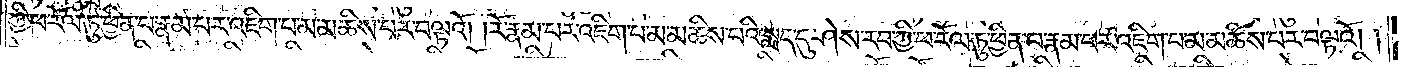ཀྱི་ཕ་རོལ་ཏུ་ཕྱིན་པ་རྣམ་པར་འཇིག་པ་མ་མཆིས་པར་བལྟའོ། །རོ་རྣམ་པར་འཇིག་པ་མ་མཆིས་པའི་སླད་དུ་ཤེས་རབ་ཀྱི་ཕ་རོལ་ཏུ་ཕྱིན་པ་རྣམ་པར་འཇིག་པ་མ་མཆིས་པར་བལྟའོ། །
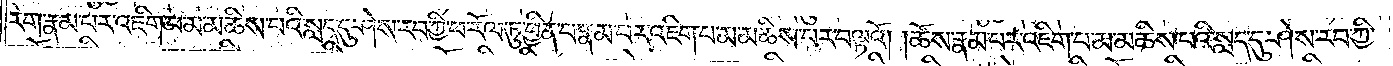རེག་རྣམ་པར་འཇིག་པ་མ་མཆིས་པའི་སླད་དུ་ཤེས་རབ་ཀྱི་ཕ་རོལ་ཏུ་ཕྱིན་པ་རྣམ་པར་འཇིག་པ་མ་མཆིས་པར་བལྟའོ། །ཆོས་རྣམ་པར་འཇིག་པ་མ་མཆིས་པའི་སླད་དུ་ཤེས་རབ་ཀྱི་
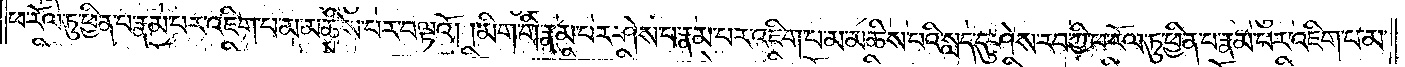ཕ་རོལ་ཏུ་ཕྱིན་པ་རྣམ་པར་འཇིག་པ་མ་མཆིས་པར་བལྟའོ། །མིག་གི་རྣམ་པར་ཤེས་པ་རྣམ་པར་འཇིག་པ་མ་མཆིས་པའི་སླད་དུ་ཤེས་རབ་ཀྱི་ཕ་རོལ་ཏུ་ཕྱིན་པ་རྣམ་པར་འཇིག་པ་མ་
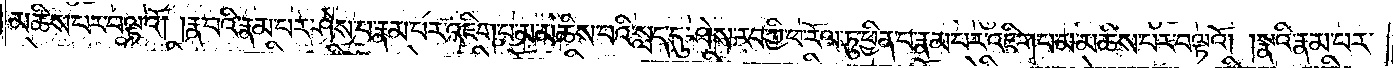མཆིས་པར་བལྟའོ། །རྣ་བའི་རྣམ་པར་ཤེས་པ་རྣམ་པར་འཇིག་པ་མ་མཆིས་པའི་སླད་དུ་ཤེས་རབ་ཀྱི་ཕ་རོལ་ཏུ་ཕྱིན་པ་རྣམ་པར་འཇིག་པ་མ་མཆིས་པར་བལྟའོ། །སྣའི་རྣམ་པར་
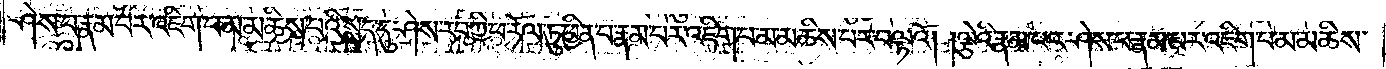ཤེས་པ་རྣམ་པར་འཇིག་པ་མ་མཆིས་པའི་སླད་དུ་ཤེས་རབ་ཀྱི་ཕ་རོལ་ཏུ་ཕྱིན་པ་རྣམ་པར་འཇིག་པ་མ་མཆིས་པར་བལྟའོ། །ལྕེའི་རྣམ་པར་ཤེས་པ་རྣམ་པར་འཇིག་པ་མ་མཆིས་
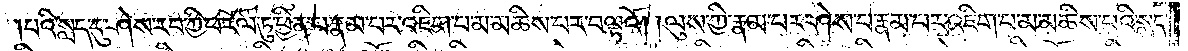པའི་སླད་དུ་ཤེས་རབ་ཀྱི་ཕ་རོལ་ཏུ་ཕྱིན་པ་རྣམ་པར་འཇིག་པ་མ་མཆིས་པར་བལྟའོ། །ལུས་ཀྱི་རྣམ་པར་ཤེས་པ་རྣམ་པར་འཇིག་པ་མ་མཆིས་པའི་སླད་
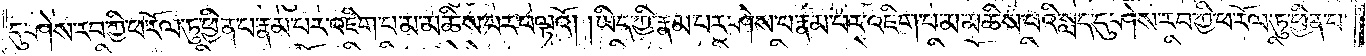དུ་ཤེས་རབ་ཀྱི་ཕ་རོལ་ཏུ་ཕྱིན་པ་རྣམ་པར་འཇིག་པ་མ་མཆིས་པར་བལྟའོ། །ཡིད་ཀྱི་རྣམ་པར་ཤེས་པ་རྣམ་པར་འཇིག་པ་མ་མཆིས་པའི་སླད་དུ་ཤེས་རབ་ཀྱི་ཕ་རོལ་ཏུ་ཕྱིན་པ་
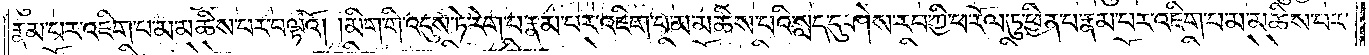རྣམ་པར་འཇིག་པ་མ་མཆིས་པར་བལྟའོ། །མིག་གི་འདུས་ཏེ་རེག་པ་རྣམ་པར་འཇིག་པ་མ་མཆིས་པའི་སླད་དུ་ཤེས་རབ་ཀྱི་ཕ་རོལ་ཏུ་ཕྱིན་པ་རྣམ་པར་འཇིག་པ་མ་མཆིས་པར་
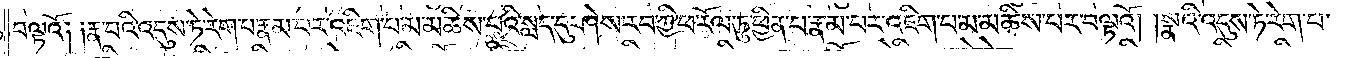བལྟའོ༑ ༑རྣ་བའི་འདུས་ཏེ་རེག་པ་རྣམ་པར་འཇིག་པ་མ་མཆིས་པའི་སླད་དུ་ཤེས་རབ་ཀྱི་ཕ་རོལ་ཏུ་ཕྱིན་པ་རྣམ་པར་འཇིག་པ་མ་མཆིས་པར་བལྟའོ། །སྣའི་འདུས་ཏེ་རེག་པ་
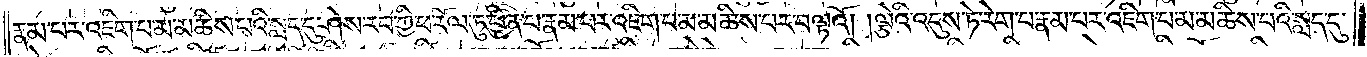རྣམ་པར་འཇིག་པ་མ་མཆིས་པའི་སླད་དུ་ཤེས་རབ་ཀྱི་ཕ་རོལ་ཏུ་ཕྱིན་པ་རྣམ་པར་འཇིག་པ་མ་མཆིས་པར་བལྟའོ། །ལྕེའི་འདུས་ཏེ་རེག་པ་རྣམ་པར་འཇིག་པ་མ་མཆིས་པའི་སླད་དུ་
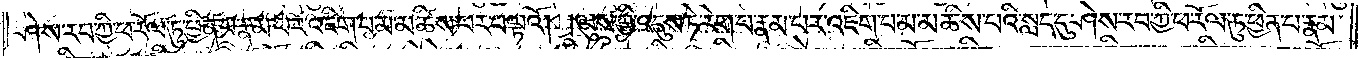ཤེས་རབ་ཀྱི་ཕ་རོལ་ཏུ་ཕྱིན་པ་རྣམ་པར་འཇིག་པ་མ་མཆིས་པར་བལྟའོ། །ལུས་ཀྱི་འདུས་ཏེ་རེག་པ་རྣམ་པར་འཇིག་པ་མ་མཆིས་པའི་སླད་དུ་ཤེས་རབ་ཀྱི་ཕ་རོལ་ཏུ་ཕྱིན་པ་རྣམ་
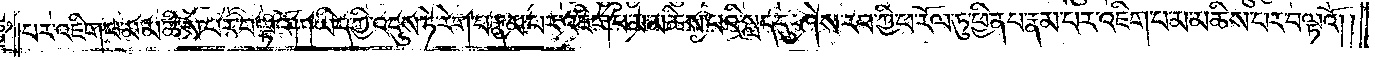པར་འཇིག་པ་མ་མཆིས་པར་བལྟའོ། །ཡིད་ཀྱི་འདུས་ཏེ་རེག་པ་རྣམ་པར་འཇིག་པ་མ་མཆིས་པའི་སླད་དུ་ཤེས་རབ་ཀྱི་ཕ་རོལ་ཏུ་ཕྱིན་པ་རྣམ་པར་འཇིག་པ་མ་མཆིས་པར་བལྟའོ། །
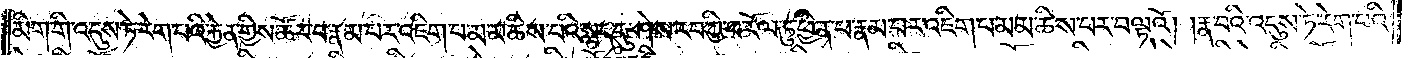མིག་གི་འདུས་ཏེ་རེག་པའི་རྐྱེན་གྱིས་ཚོར་བ་རྣམ་པར་འཇིག་པ་མ་མཆིས་པའི་སླད་དུ་ཤེས་རབ་ཀྱི་ཕ་རོལ་ཏུ་ཕྱིན་པ་རྣམ་པར་འཇིག་པ་མ་མཆིས་པར་བལྟའོ། །རྣ་བའི་འདུས་ཏེ་རེག་པའི་
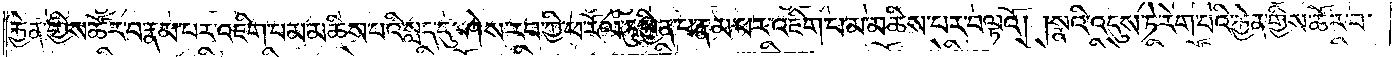རྐྱེན་གྱིས་ཚོར་བ་རྣམ་པར་འཇིག་པ་མ་མཆིས་པའི་སླད་དུ་ཤེས་རབ་ཀྱི་ཕ་རོལ་ཏུ་ཕྱིན་པ་རྣམ་པར་འཇིག་པ་མ་མཆིས་པར་བལྟའོ། །སྣའི་འདུས་ཏེ་རེག་པའི་རྐྱེན་གྱིས་ཚོར་བ་
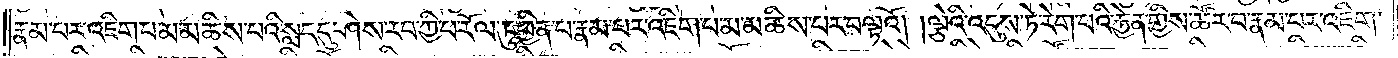རྣམ་པར་འཇིག་པ་མ་མཆིས་པའི་སླད་དུ་ཤེས་རབ་ཀྱི་ཕ་རོལ་ཏུ་ཕྱིན་པ་རྣམ་པར་འཇིག་པ་མ་མཆིས་པར་བལྟའོ། །ལྕེའི་འདུས་ཏེ་རེག་པའི་རྐྱེན་གྱིས་ཚོར་བ་རྣམ་པར་འཇིག་
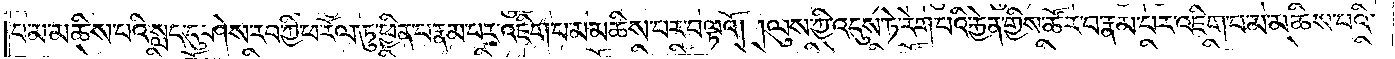པ་མ་མཆིས་པའི་སླད་དུ་ཤེས་རབ་ཀྱི་ཕ་རོལ་ཏུ་ཕྱིན་པ་རྣམ་པར་འཇིག་པ་མ་མཆིས་པར་བལྟའོ། །ལུས་ཀྱི་འདུས་ཏེ་རེག་པའི་རྐྱེན་གྱིས་ཚོར་བ་རྣམ་པར་འཇིག་པ་མ་མཆིས་པའི་
